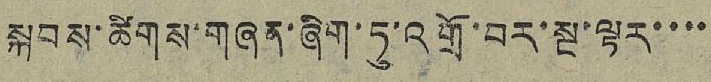སྐབས་ཚིགས་གཞན་ཞིག་ཏུ་འགྲོ་བར་སྔ་ལྟར་་་་
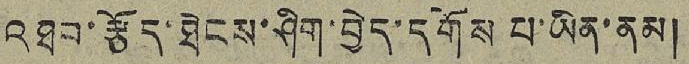འཐབ་རྩོད་ཐེངས་ཤིག་བྱེད་དགོས་པ་ཡིན་ནམ།
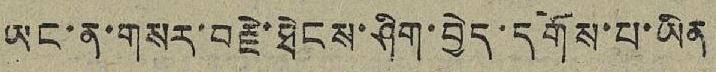ཡང་ན་གསར་བརྗེ་ཐེངས་ཤིག་བྱེད་དགོས་པ་ཡིན་
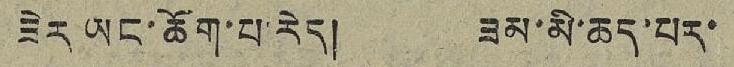ཟེར་ཡང་ཆོག་པ་རེད། ཟམ་མི་ཆད་པར་
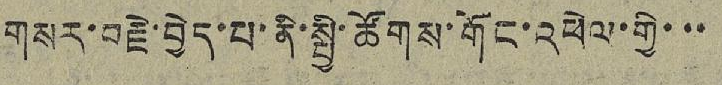གསར་བརྗེ་བྱེད་པ་ནི་སྤྱི་ཚོགས་གོང་འཕེལ་གྱི་་་
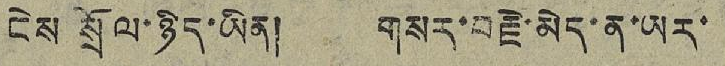ངེས་སྲོལ་ཉིད་ཡིན། གསར་བརྗེ་མེད་ན་ཡར་
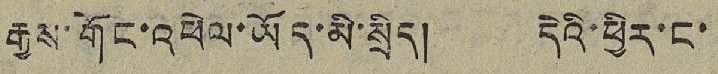རྒྱས་གོང་འཕེལ་ཡོད་མི་སྲིད། དེའི་ཕྱིར་ང་
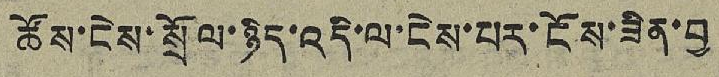ཚོས་ངེས་སྲོལ་ཉིད་འདི་ལ་ངེས་པར་ངོས་ཟིན་བྱ
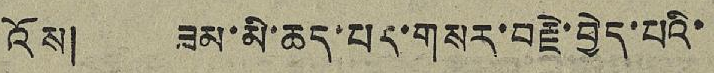འོས། ཟམ་མི་ཆད་པར་གསར་བརྗེ་བྱེད་པའི་
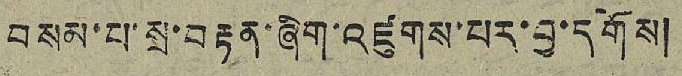བསམ་པ་སྲ་བརྟན་ཞིག་འཛུགས་པར་བྱ་དགོས།
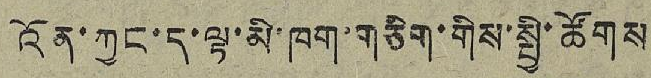འོན་ཀྱང་ད་ལྟ་མི་ཁག་གཅིག་གིས་སྤྱི་ཚོགས
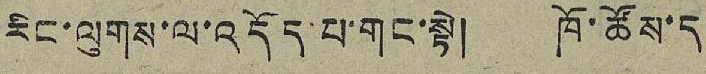རིང་ལུགས་ལ་འདོད་པ་གང་སྟེ། ཁོ་ཚོས་ད
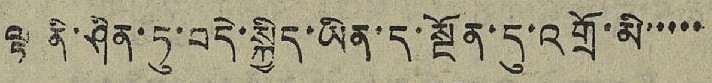ལྟ་ནི་ཤིན་ཏུ་བདེ་སྐྱིད་ཡིན་ད་སྔོན་དུ་འགྲོ་མི་་་་་
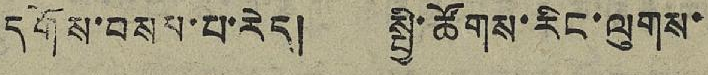དགོས་བསམ་པ་རེད། སྤྱི་ཚོགས་རིང་ལུགས་
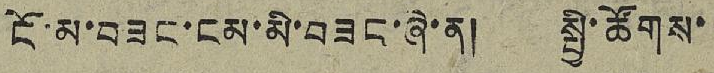ངོ་མ་བཟང་ངམ་མི་བཟང་ཞེ་ན། སྤྱི་ཚོགས་
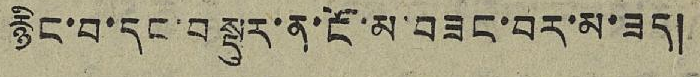རྙིང་བ་དང་བསྡུར་ན་ངོ་མ་བཟང་བར་མ་ཟད།
